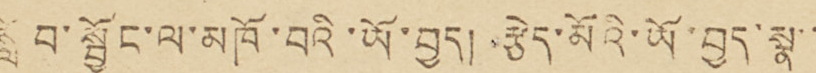སློབ་སྦྱོང་ལ་མཁོ་བའི་ཡོ་བྱད། རྩེད་མོའི་ཡོ་བྱད་སྣ་་་
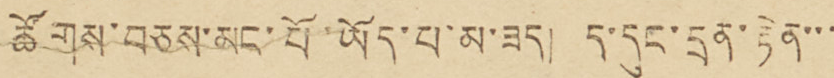ཚོགས་བཅས་མང་པོ་ཡོད་པ་མ་ཟད། ད་དུང་དྲན་རྟེན་་་་
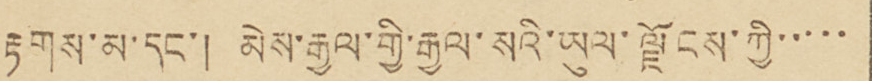རྟགས་མ་དང་། མེས་རྒྱལ་གྱི་རྒྱལ་སའི་ཡུལ་ལྗོངས་ཀྱི་་་་་
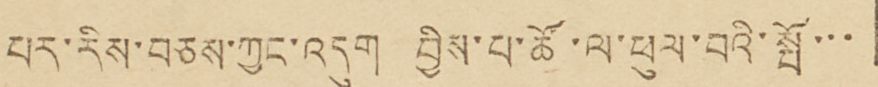པར་རིས་བཅས་ཀྱང་འདུག བྱིས་པ་ཚོ་ལ་ཕུལ་བའི་སྤོ་་་
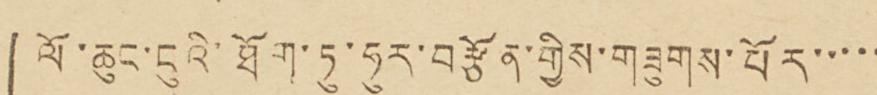ལོ་ཆུང་ངུའི་ཐོག་ཏུ་ཧུར་བརྩོན་གྱིས་གཟུགས་པོར་་་་་
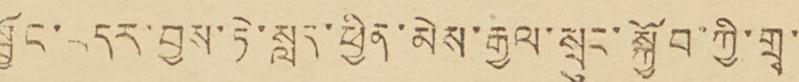སྦྱོང་བདར་བྱས་ཏེ་སླད་ཕྱིན་མེས་རྒྱལ་སྲུང་སྐྱོབ་ཀྱི་གྲྭ་་་
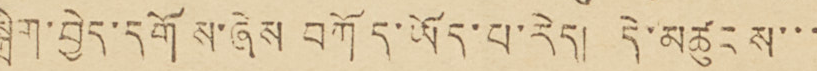སྒྲིག་བྱེད་དགོས་ཞེས བཀོད་ཡོད་པ་རེད། དེ་མཚུངས་་་་
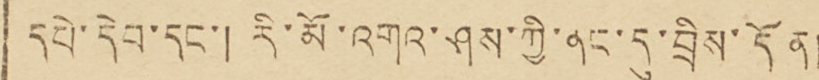དཔེ་དེབ་དང་། རི་མོ་འགའ་ཤས་ཀྱི་ནང་དུ་བྲིས་དོན།
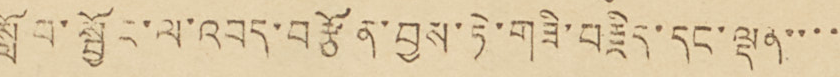སློབ་སྦྱོང་ལ་འབད་བརྩོན་བྱས་ཏེ་གཟི་བརྗིད་དང་ལྡན་་་་་
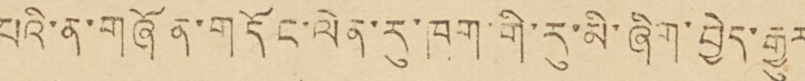པའི་ན་གཞོན་གདོང་ལེན་རུ་ཁག་གི་རུ་མི་ཞིག་བྱེད་རྒྱུར་་
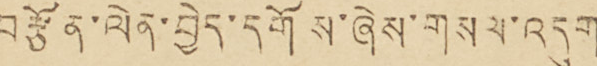བརྩོན་ལེན་བྱེད་དགོས་ཞེས་གསལ་འདུག
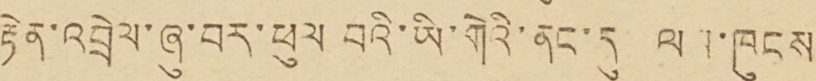རྟེན་འབྲེལ་ཞུ་བར་ཕུལ བའི་ཡི་གེའི་ནང་དུ ལས་ཁུངས་
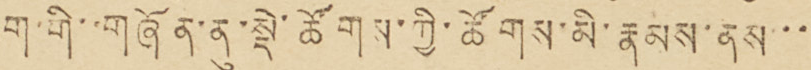ཁག་གི་གཞོན་ནུ་སྡེ་ཚོགས་ཀྱི་ཚོགས་མི་རྣམས་ནས་་་
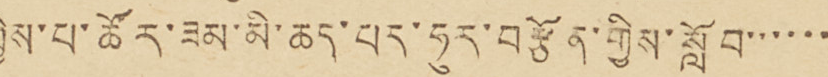བྱིས་པ་ཚོར་ཟམ་མི་ཆད་པར་ཧུར་བརྩོན་གྱིས་སློབ་་་་་་
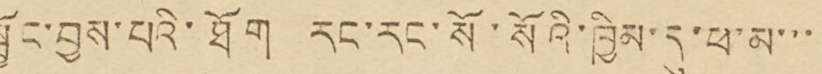སྦྱོང་བྱས་པའི་ཐོག རང་རང་སོ་སོའི་ཁྱིམ་དུ་ཕ་མ་་་་
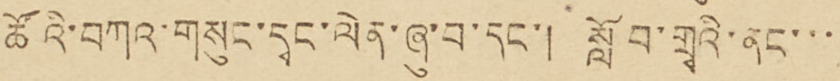ཚོའི་བཀའ་གསུང་དྭང་ལེན་ཞུ་བ་དང་། སློབ་གྲྭའི་ནང་་་་
